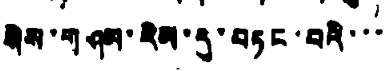སིས་གཤམ་རིམ་དུ་བཏང་བའི་་་་
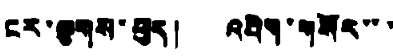ངར་ལྕགས་ཕུད། འབིན་གསོར་་་
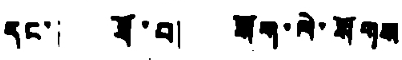དང་། ཐོ་བ། སོག་ལེ་སོགས
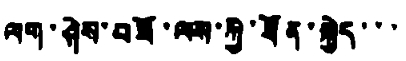ལག་ཤེས་བཟོ་ལས་ཀྱི་ཐོན་སྐྱེད་་་
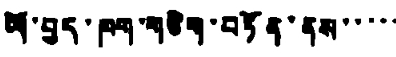ཡོ་བྱད་ཁག་གཅིག་བཏོན་ནས་་་་་
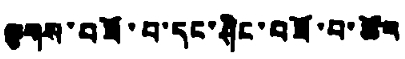ལྕགས་བཟོ་བ་དང་ཤིང་བཟོ་བ་ཚོར
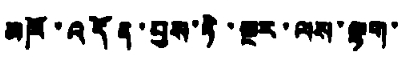མཁོ་འདོན་བྱས་ཏེ་སྔར་ལས་ལྷག་
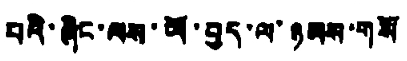པའི་ཞིང་ལས་ཡོ་བྱད་ལ་ཉམས་གསོ
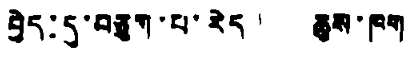བྱེད་དུ་བཅུག་པ་རེད། ཆུས་ཁག
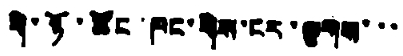གི་ཉོ་ཚོང་ཁང་གིས་ངར་ལྕགས་་་
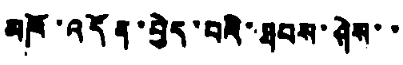མཁོ་འདོན་བྱེད་པའི་ཐབས་ཤེས་་
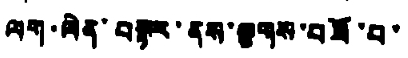ལག་ལེན་བསྟར་ནས་ལྕགས་བཟོ་བ་
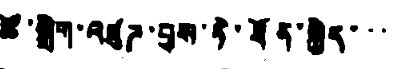ཚོ་སྒྲིག་འཛུཌ་བྱས་ཏེ་ཐོན་སྐྱེད་་་
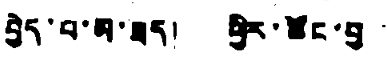བྱེད་པ་མ་ཟད། ཕྱིར་ཚོང་བྱ་་
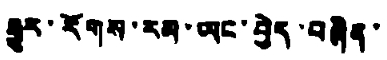རྒྱུར་རོགས་རམ་ཡང་བྱེད་བཞིན་་
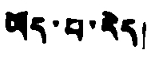ཡོད་པ་རེད།
